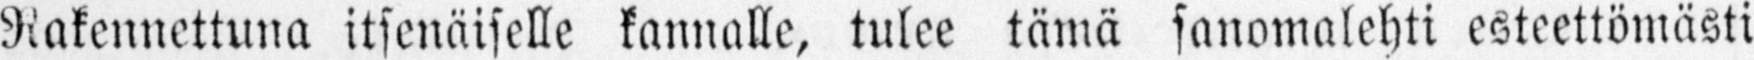Rakennettuna itsenäiselle kannalle, tulee tämä sanomalehti esteettömästi
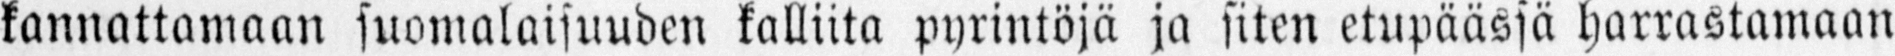kannattamaan suomalaisuuden kalliita pyrintöjä ja siten etupäässä harrastamaan
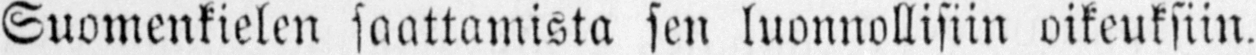Suomenkielen saattamista sen luonnollisiin oikeuksiin.
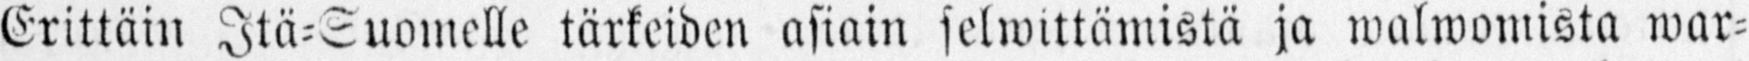Erittäin Itä-Suomelle tärkeiden asiain selwittämistä ja walwomista war-
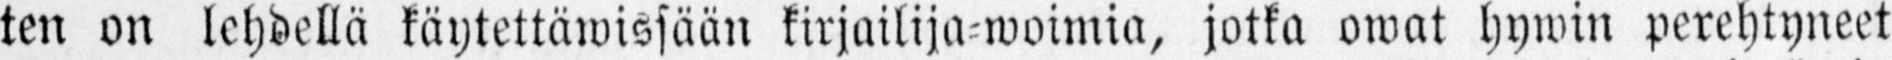ten on lehdellä käytettäwissään kirjailija-woimia, jotka owat hywin perehtyneet
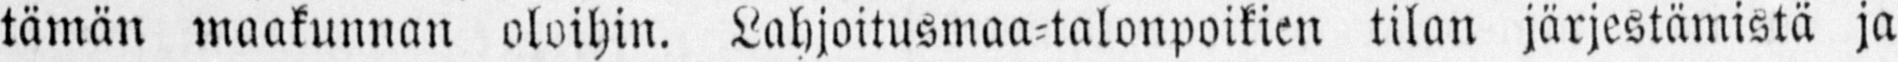tämän maakunnan oloihin. Lahjoitusmaa-talonpoikien tilan järjestämistä ja
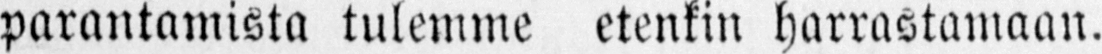parantamista tulemme etenkin harrastamaan.
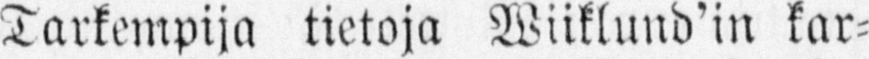Tarkempija tietoja Wiiklund'in kar-
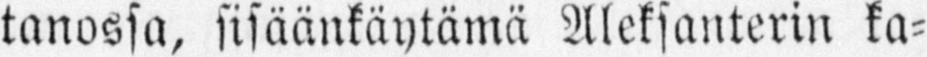tanossa, sisäänkäytämä Aleksanterin ka-
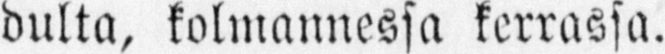dulta, kolmannessa kerrassa.
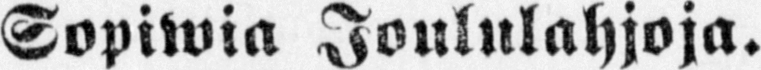Sopiwia Joululahjoja.
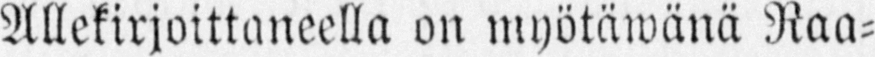Allekirjoittaneella on myötäwänä Raa-
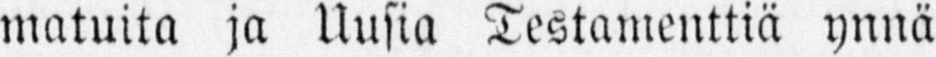matuita ja Uusia Testamenttiä ynnä
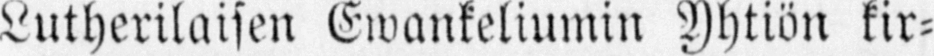Lutherilaisen Ewankeliumin Yhtiön kir-
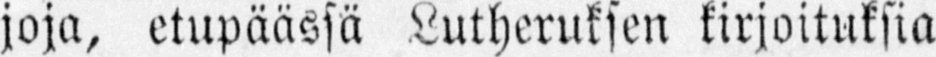joja, etupäässä kirjoituksia
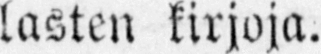lasten kirjoja.
